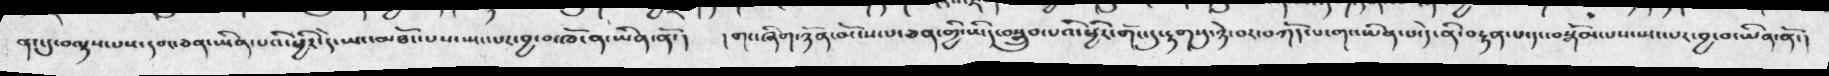ནང་དུ་བལྟསཔས་དབང་ཅན་ཡིན་པའི་ཕྱིར་དེ་ཡང་མཐོང་པས་སྤང་པར་བྱ་བ་ཁོ་ན་ཡིན་ནོ་།   ། གང་ཞིག་ཉོན་མོངས་པ་ཅན་གྱི་ཡིད་བསྒྲུབ་པའི་ཕྱིར་གོང་དུ་རྟགསུ་ཉེ་བར་བཀོད་པ་གང་ཡིན་པ་དེ་ནི་བརྟན་པ་དང་བསྒོམ་པས་སྤང་པར་བྱ་བ་ཡིན་ནོ་།
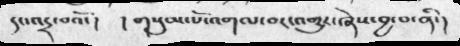དང་འདྲ་བའོ་།   ། གསུམ་པོ་འགལ་བར་འགྱུར་ཞེས་བྱ་བ་ནི་ །
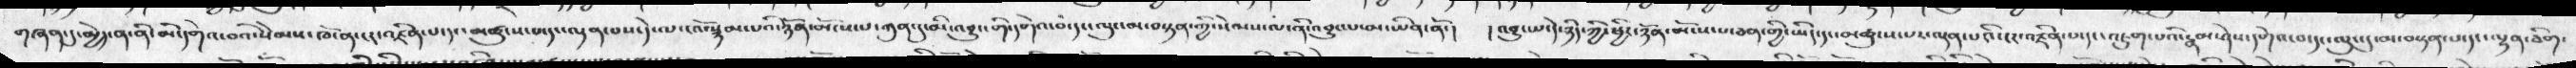གཞན་དུ་མྱེད་ན་ནི་མི་དགེའ་བའི་སེམས་ཁོ་ན་ངར་འཛིན་པ་དང་མཚུངས་པ་དང་ལྡན་པས་དེ་ལ་ངའོ་སྙམ་པའི་ཉོན་མོངས་པ་ཀུན་དུ་མི་འབྱུང་གི་དགེའ་བ་དང་ལུང་མ་བསྟན་གྱི་སེམས་ལ་ནི་འབྱུང་པ་མ་ཡིན་ནོ་།  ། འབྱུང་པ་དེ་ཉིད་ཀྱི་ཕྱིར་ཉོན་མོངས་པ་ཅན་གྱི་ཡིད་དང་མཚུངས་པར་ལྡན་པའི་ངར་འཛིན་པ་དང་འཇུག་པའི་རྣམ་ཤེས་དགེའ་བ་དང་ལུང་དུ་མ་བསྟན་པ་དང་ལྷན་ཅིག་
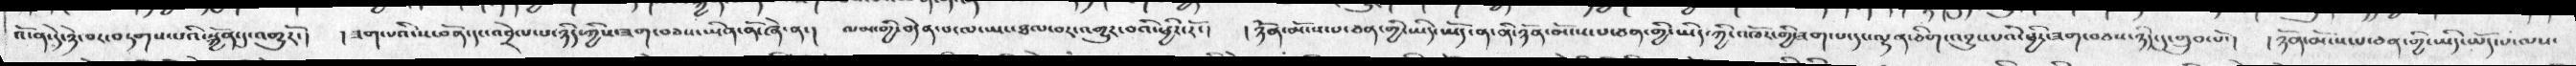འོ་ན་དེ་ཉེ་བར་བཏགས་པའི་སྐྱོན་དུ་འགྱུརོ་།   །ཟག་པའི་ས་བོན་དང་འབྲེལ་པ་ཉིད་ཀྱིས་ཟག་བཅས་ཡིན་ནོ་ཞེ་ན་།   ལམ་གྱི་བདེན་པ་ཡང་ཐལ་བར་འགྱུར་བའི་ཕྱིར་རོ་།   ། ཉོན་མོངས་པ་ཅན་གྱི་ཡིད་ཡོད་ན་ནི་ཉོན་མོངས་པ་ཅན་གྱི་ཡིད་ཀྱི་འཁོར་གྱི་དག་པ་དང་ལྷན་ཅིག་འབྱུང་པའི་ཕྱིར་ཟག་བཅས་ཉིད་དུ་གྲུབ་པོ་།   ། ཉོན་མོངས་པ་ཅན་གྱི་ཡིད་ཡོད་པ་ལས་
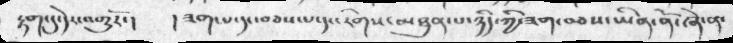རྟག་དུ་དེར་འགྱུརོ་།   ། ཟག་པ་དང་བཅས་པ་དང་རིགས་མཐུན་པ་ཉིད་ཀྱི་ཟག་བཅས་ཡིན་ནོ་ཞེ་ན་
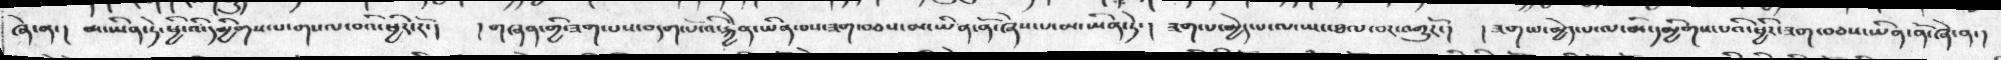ཞེ་ན་།  མ་ཡིན་ཏེ་ཕྱི་འི་དམྱིགས་པ་གསལ་བའི་ཕྱིར་རོ་།  ། གཞན་གྱི་ཟག་པས་བདག་པོ་འི་རྐྱེན་ཡིན་པས་ཟག་བཅས་མ་ཡིན་ནོ་ཞེས་པ་མ་ཡིན་ཏེ་།   ཟག་པ་སྤྱོད་པ་ལ་ཡང་ཐལ་བར་འགྱུརོ་།  ཟག་པ་མྱེད་པ་ལ་མི་དམྱིགས་པའི་ཕྱིར་ཟག་བཅས་ཡིན་ནོ་ཞེ་ན་།
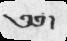༄༅།
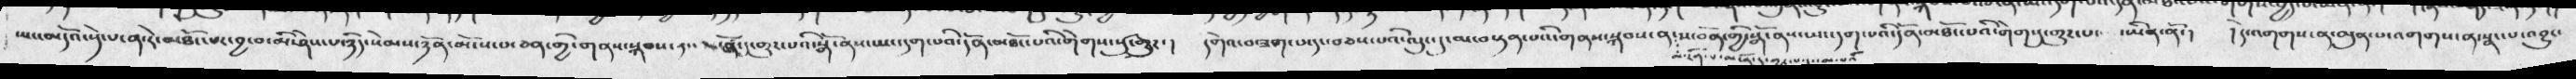ཡང་མདོའ་སྡེ་པ་ན་རེ་མཐོང་བར་བྱ་བ་མི་ཤེས་པ་ཉིད་སེམས་ཉོན་མོངས་པ་ཅན་གྱི་གནས་སྐབས་དང་མངོན་དུ་གྱུར་པའི་སྒོ་ནས་ཡང་དག་པའི་དོན་མཐོང་པའི་གེགས་སུ་གྱུར་།  དགེའ་བ་ཟག་པ་དང་བཅས་པའི་ལུང་དུ་མ་བསྟན་པའི་གནས་སྐབས་ན་ས་བོན་གྱི་སྒོ་ནས་ཡང་དག་པའི་དོན་མཐོང་པའི་གེགསུ་གྱུར་པ་  ་ཡིན་ནོ་།   ། དེ་འགགས་ན་མུན་པ་འགགས་ན་སྣང་པ་འབྱུང་
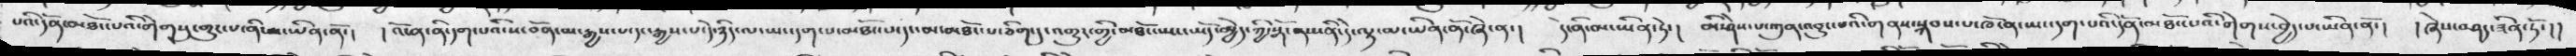པའི་དོན་མཐོང་པའི་གེགསུ་གྱུར་པ་ནི་མ་ཡིན་ནོ་།  ། འོ་ན་ནི་དག་པའི་ས་བོན་མ་རྒྱས་པ་དང་རྒྱས་པ་དེ་ཉིད་ལ་ཡང་དག་པ་མཐོང་བ་དང་མ་མཐོང་པ་ཅིག་དུ་འགྱུར་གྱི་མཐོང་ཡང་ཡོད་མྱེད་ཀྱི་སྒོ་ནས་ནི་དེ་ལྟ་མ་ཡིན་ནོ་ཞེ་ན་།   དེ་ནི་མ་ཡིན་ཏེ་།  མི་ཤེས་པ་ཀུན་འབྱུང་པའི་གནས་སྐབས་པ་ཁོ་ན་ཡང་དག་པའི་དོན་མཐོང་པའི་གེགས་བྱེད་པ་ཡིན་ནོ་།  ། ཞེས་བཤད་ཟིན་ཏོ་།།
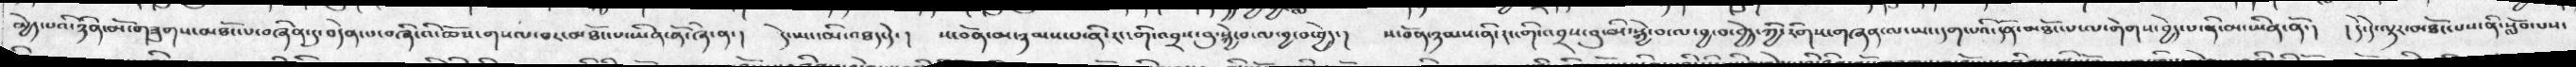མྱེད་པའི་ཉིན་མོ་གཟུགས་མཐོང་པ་བཞིན་དུ་བདེན་པ་བཞི་འི་ཆོས་གསལ་བར་མཐོང་པ་ཡིན་ནོ་ཞེ་ན་།  དེ་ཡང་མི་འཐད་དེ་།  ས་བོན་མ་ཉམས་པ་ནི་རང་གི་འབྲས་བུ་སྐྱེ་བ་ལ་བྱ་བ་བྱེད་།   ས་བོན་ཉམས་ནི་རང་གི་འབྲས་བུ་མི་སྐྱེ་བ་ལ་བྱ་བ་བྱེད་ཀྱི་རིགས་གཞན་ལ་ཡང་དག་པའི་དོན་མཐོང་པ་ལ་གེགས་བྱེད་པ་ནི་མ་ཡིན་ནོ་།  ། དེ་དེ་ལྟར་མཐོང་པས་ནི་སློབ་པས་
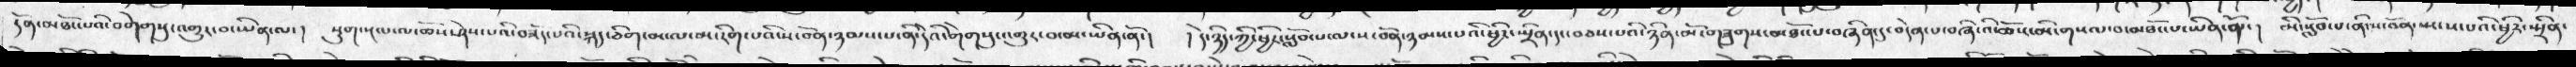དོན་མཐོང་པའི་བགེགསུ་འགྱུར་བ་ཡིན་ལ་།  སྡུག་སྔལ་ལ་ཆོས་ཤེས་པའི་བཟོད་པའི་སྐད་ཅིག་མ་ལ་མ་རིག་པའི་ས་བོན་ཉམས་པ་ནི་དེའི་གེགསུ་འགྱུར་བ་མ་ཡིན་ནོ་།  ། དེ་ཉིད་ཀྱི་ཕྱིར་སློབ་པ་ལ་ས་བོན་ཉམས་པའི་ཕྱིར་སྤྲིན་དང་བཅས་པའི་ཉིན་མོ་གཟུགས་མཐོང་པ་བཞིན་དུ་བདེན་པ་བཞི་འི་ཆོས་མི་གསལ་བ་མཐོང་པ་ཡིན་ནོ་།  མི་སློབ་པ་ནི་ས་བོན་སྤངས་པའི་ཕྱིར་སྤྲིན་
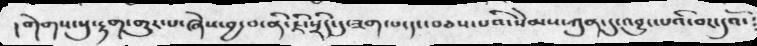། གེགས་སུ་རྟག་གྱུར་པ་ཞེས་བྱ་བ་ནི་ཇི་སྲིད་དུ་ཟག་པ་དང་བཅས་པའི་སེམས་ཀུན་དུ་འབྱུང་པའི་བར་དུའོ་༴
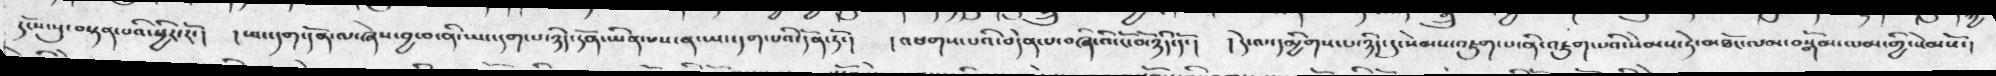དངོས་སུ་བསྟན་པའི་ཕྱིར་རོ་།  །ཡང་དག་དོན་ལ་ཞེས་བྱ་བ་ནི་ཡང་དག་པ་ཉིད་དོན་ཡིན་པས་ན་ཡང་དག་པའི་དོན་ཏོ་།   ། འཕགས་པའི་བདེན་པ་བཞི་འི་ངོ་བོ་ཉིད་ཉིད་དོ་།  ། དེ་ལ་དམྱིགས་པ་ཉིད་དུ་སེམས་འཇུག་པ་ནི་འཇུག་པའི་སེམས་ཏེ་མཐོང་ལལམ་བསྒོམ་ལམ་གྱི་སེམསོ་།
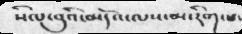སིལ་བུའི་མདོའ་ལས་མ་རིག་པ་
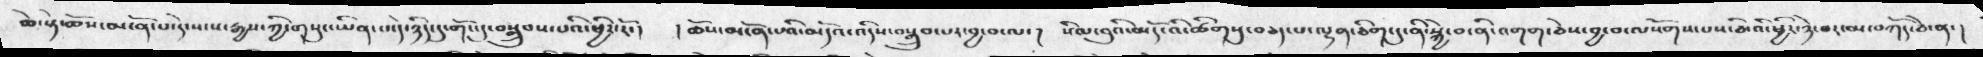ཆེ་སྟེ་ཆོས་མངོན་པ་དེ་སངས་རྒྱས་ཀྱི་གསུང་ཡིན་པ་དེ་ཉིད་དུ་གོང་དུ་བསྒྲུབས་པའི་ཕྱིར་རོ་།  ། ཆོས་མངོན་པའི་མདོའ་འདིས་བསྒྲུབ་པར་བྱ་བ་ལ་།  སིལ་བའི་མདོ་འི་ཚིགསུ་བཅད་པ་ལྷན་ཅིག་དུ་ནི་སྐྱེ་བ་ནི་འགག་ཅེས་བྱ་བ་ལསོགས་པས་ཅིའི་ཕྱིར་ཉེ་བར་མ་བཀོད་ཅེ་ན་།
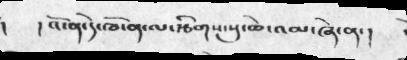།    ། འོ་ན་དེ་ཁོ་ན་ལ་རྩིགས་སུ་ཆེ་འམ་ཞེ་།
